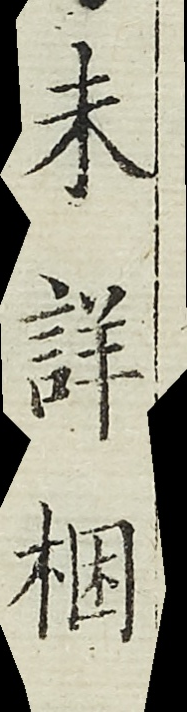未詳梱
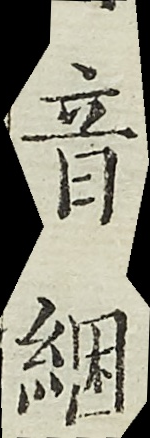音綑
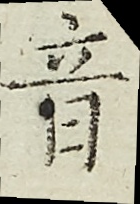音
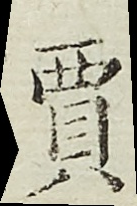賈
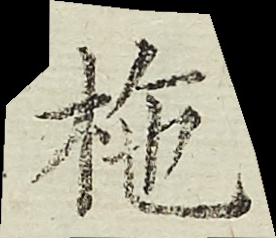柂
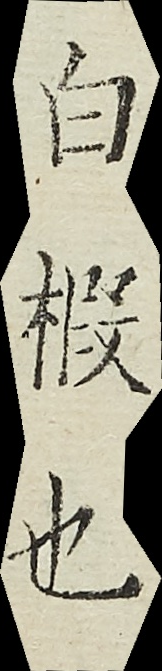白椵也
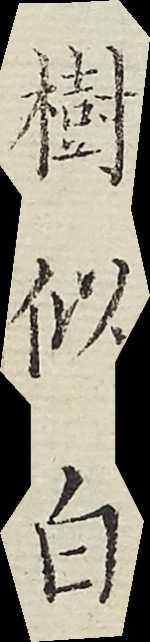樹似白
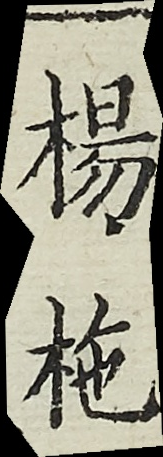楊柂
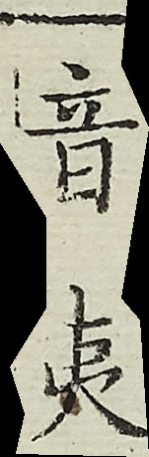音夷
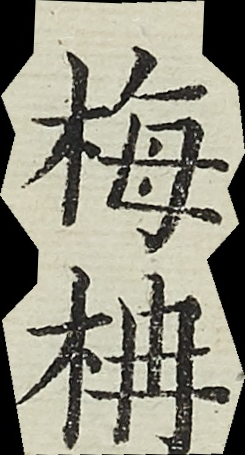梅柟
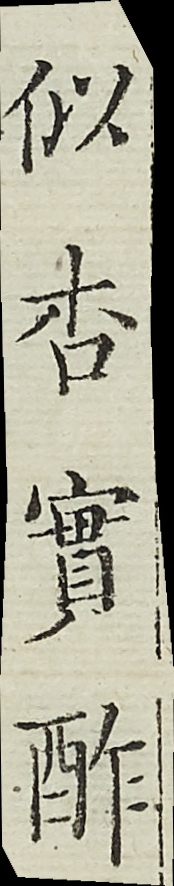似杏實酢
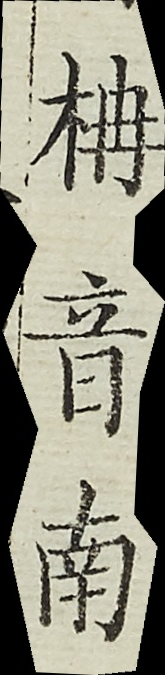柟音南
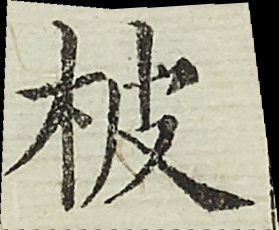柀
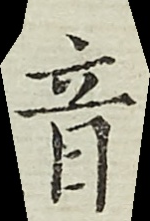音
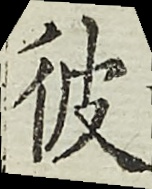彼
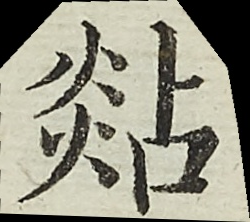煔
